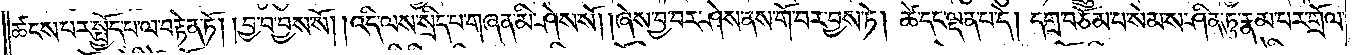ཚངས་པར་སྤྱོད་པ་ལ་བརྟེན་ཏོ། །བྱ་བ་བྱས་སོ། །འདི་ལས་སྲིད་པ་གཞན་མི་ཤེས་སོ། །ཞེས་བྱ་བར་ཤེས་ནས་གོ་བར་བྱས་ཏེ། ཚེ་དང་ལྡན་པ་དེ། དགྲ་བཅོམ་པ་སེམས་ཤིན་ཏུ་རྣམ་པར་གྲོལ་
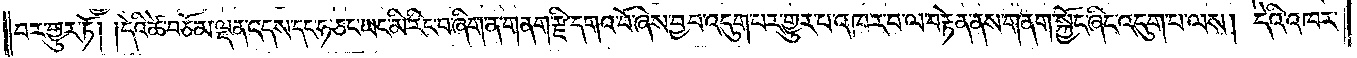བར་གྱུར་ཏོ། །དེའི་ཚེ་བཅོམ་ལྡན་འདས་དང་ཧ་ཅང་ཡང་མི་རིང་བ་ཞིག་ན་གནག་རྫི་དགའ་བོ་ཞེས་བྱ་བ་འདུག་པར་གྱུར་པ་འཁར་བ་ལ་བརྟེན་ནས་གནག་སྐྱོང་ཞིང་འདུག་པ་ལས། དེའི་འཁར་
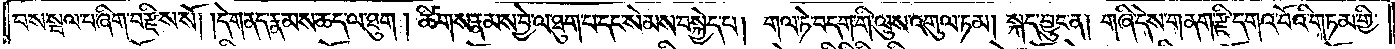བས་སྦལ་པ་ཞིག་བརྫིས་སོ། །དེ་གནད་རྣམས་ཆད་ལ་ཐུག །ཚིགས་རྣམས་བྱེ་ལ་ཐུག་པ་དང་སེམས་བསྐྱེད་པ། གལ་ཏེ་བདག་གི་ལུས་འགུལ་ཏམ། སྐད་བྱུང་ན། གཞི་དེས་གནག་རྫི་དགའ་བོའི་གཏམ་གྱི་
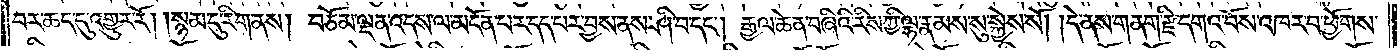བར་ཆད་དུ་འགྱུར་རོ། །སྙམ་དུ་རིག་ནས། བཅོམ་ལྡན་འདས་ལ་མངོན་པར་དད་པར་བྱས་ནས་ཤི་བ་དང༌། རྒྱལ་ཆེན་བཞིའི་རིས་ཀྱི་ལྷ་རྣམས་སུ་སྐྱེས་སོ། །དེ་ནས་གནག་རྫི་དགའ་བོས་འཁར་བ་ཕྱོགས་
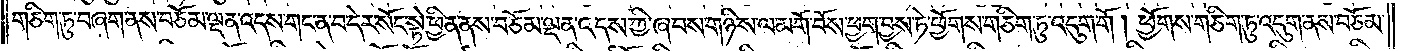གཅིག་ཏུ་བཞག་ནས་བཅོམ་ལྡན་འདས་གང་ན་བ་དེར་སོང་སྟེ་ཕྱིན་ནས་བཅོམ་ལྡན་འདས་ཀྱི་ཞབས་གཉིས་ལ་མགོ་བོས་ཕྱག་བྱས་ཏེ་ཕྱོགས་གཅིག་ཏུ་འདུག་གོ། ཕྱོགས་གཅིག་ཏུ་འདུག་ནས་བཅོམ་
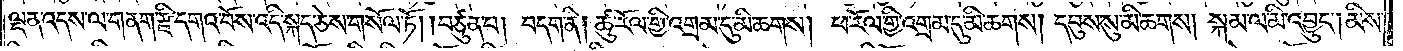ལྡན་འདས་ལ་གནག་རྫི་དགའ་བོས་འདི་སྐད་ཅེས་གསོལ་ཏོ། །བཙུན་པ། བདག་ནི། ཚུ་རོལ་གྱི་འགྲམ་དུ་མི་ཆགས། ཕ་རོལ་གྱི་འགྲམ་དུ་མི་ཆགས། དབུས་སུ་མི་ཆགས། སྐམ་ལ་མི་འབྱུང༌། མིས་
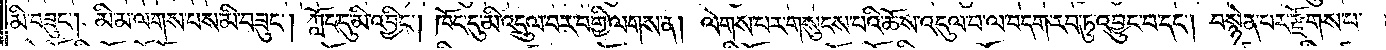མི་བཟུང༌། མི་མ་ལགས་པས་མི་བཟུང༌། ཀློང་དུ་མི་འབྱིང༌། ཁོང་དུ་མི་འདྲུལ་བར་བགྱི་ལགས་ན། ལེགས་པར་གསུངས་པའི་ཆོས་འདུལ་བ་ལ་བདག་རབ་ཏུ་འབྱུང་བ་དང༌། བསྙེན་པར་རྫོགས་པ་
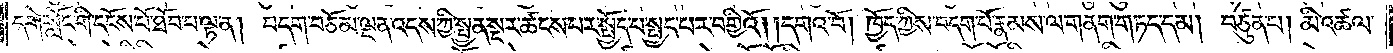དགེ་སློང་གི་དངོས་པོ་ཐོབ་པ་ལྟ་ན། བདག་བཅོམ་ལྡན་འདས་ཀྱི་སྤྱན་སྔར་ཚངས་པར་སྤྱོད་པ་སྤྱད་པར་བགྱིའོ། །དགའ་བོ། ཁྱོད་ཀྱིས་བདག་པོ་རྣམས་ལ་གནག་གཏད་དམ། བཙུན་པ། མི་འཚལ་
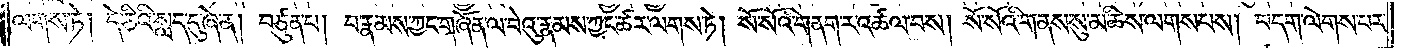ལགས་ཏེ། དེ་ཅིའི་སླད་དུ་ཞེ་ན། བཙུན་པ། བ་རྣམས་ཀྱང་གཞོན་ལ་བེའུ་རྣམས་ཀྱང་ཚར་ལགས་ཏེ། སོ་སོའི་གནག་ར་འཚལ་བས། སོ་སོའི་གནས་སུ་མཆིས་ལགས་པས། བདག་ལེགས་པར་
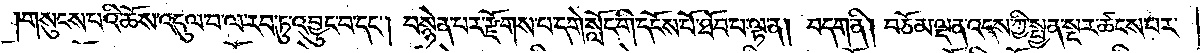།གསུངས་པའི་ཆོས་འདུལ་བ་ལ་རབ་ཏུ་འབྱུང་བ་དང༌། བསྙེན་པར་རྫོགས་པ་དགེ་སློང་གི་དངོས་པོ་ཐོབ་པ་ལྟ་ན། བདག་ནི། བཅོམ་ལྡན་འདས་ཀྱི་སྤྱན་སྔར་ཚངས་པར་
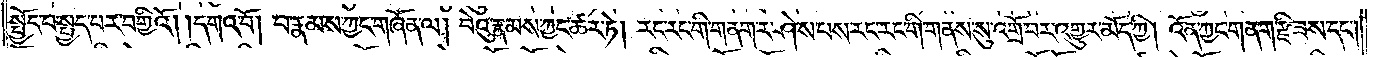སྤྱོད་པ་སྤྱད་པར་བགྱིའོ། །དགའ་བོ། བ་རྣམས་ཀྱང་གཞོན་ལ། བེའུ་རྣམས་ཀྱང་ཚར་ཏེ། རང་རང་གི་གནག་ར་ཤེས་པས་རང་རང་གི་གནས་སུ་འགྲོ་བར་འགྱུར་མོད་ཀྱི། འོན་ཀྱང་གནག་རྫི་ཟས་དང༌།
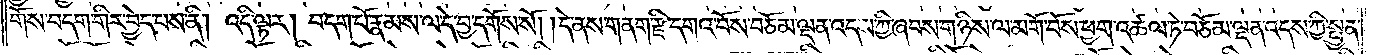གོས་བདག་གིར་བྱེད་པས་ནི། འདི་ལྟར། བདག་པོ་རྣམས་ལ་དེ་བྱ་དགོས་སོ། །དེ་ནས་གནག་རྫི་དགའ་བོས་བཅོམ་ལྡན་འདས་ཀྱི་ཞབས་གཉིས་ལ་མགོ་བོས་ཕྱག་འཚལ་ཏེ་བཅོམ་ལྡན་འདས་ཀྱི་སྤྱན་
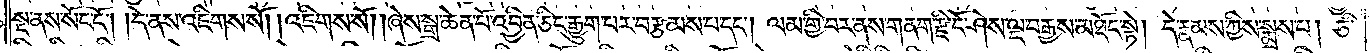སྔ་ནས་སོང་ངོ༌། །དེ་ནས་འཇིགས་སོ། །འཇིགས་སོ། །ཞེས་སྒྲ་ཆེན་པོ་འབྱིན་ཅིང་རྒྱུག་པར་བརྩམས་པ་དང༌། ལམ་གྱི་བར་ནས་གནག་རྫི་ངོ་ཤེས་ལྔ་བརྒྱས་མཐོང་སྟེ། དེ་རྣམས་ཀྱིས་སྨྲས་པ། ཅི་
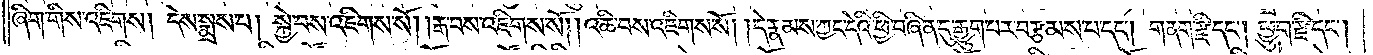ཞིག་གིས་འཇིགས། དེས་སྨྲས་པ། སྐྱེ་བས་འཇིགས་སོ། །རྒ་བས་འཇིགས་སོ། །འཆི་བས་འཇིགས་སོ། །དེ་རྣམས་ཀྱང་དེའི་ཕྱི་བཞིན་དུ་རྒྱུག་པར་བརྩམས་པ་དང༌། གནག་རྫི་དང༌། ཕྱུག་རྫི་དང༌།
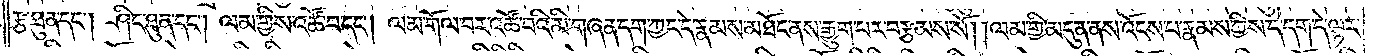རྩ་ཐུན་དང༌། ཤིང་ཐུན་དང༌། ལམ་གྱིས་འཚོ་བ་དང༌། ལམ་གོལ་བར་འཚོ་བའི་མི་གཞན་དག་ཀྱང་དེ་རྣམས་མཐོང་ནས་རྒྱུག་པར་བརྩམས་སོ། །ལམ་གྱི་མདུན་ནས་འོངས་པ་རྣམས་ཀྱིས་དེ་དག་དེ་ལྟར་
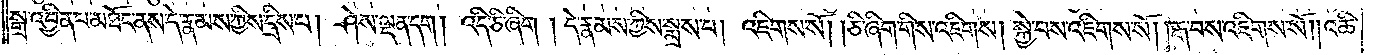སྒྲ་འབྱིན་པ་མཐོང་ནས་དེ་རྣམས་ཀྱིས་དྲིས་པ། ཤེས་ལྡན་དག །འདི་ཅི་ཞིག །དེ་རྣམས་ཀྱིས་སྨྲས་པ། འཇིགས་སོ། །ཅི་ཞིག་གིས་འཇིགས། སྐྱེ་བས་འཇིགས་སོ། །རྒ་བས་འཇིགས་སོ། །འཆི་
